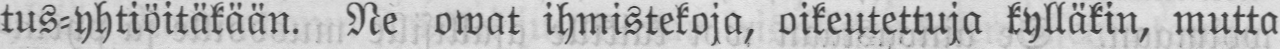tus-yhtiöitäkään. Ne owat ihmistekoja, oikeutettuja kylläkin, mutta
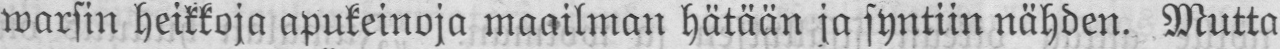warsin heikkoja apukeinoja maailman hätään ja syntiin nähden. Mutta
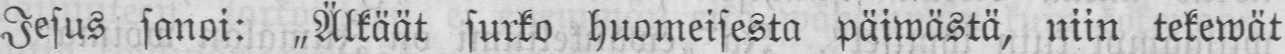Jesus sanoi: „Älkäät surko huomeisesta päiwästä, niin tekewät
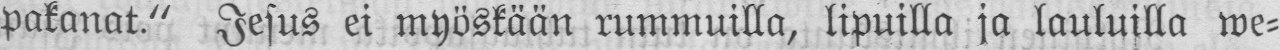pakanat." Jesus ei myöskään rummuilla, lipuilla ja lauluilla we-
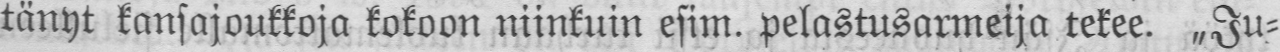tänyt kansajoukkoja kokoon niinkuin esim, pelastusarmeija tekee. „Ju-
